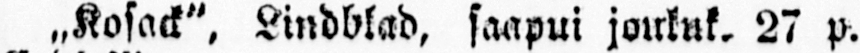„Kosack", Lindblad, saapui joulua 27 p.
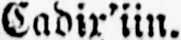Cadix'iin.
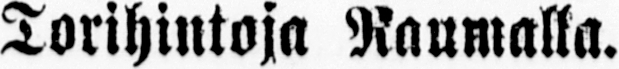Torihintoja Raumalla.
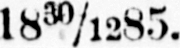l8 30/l285.
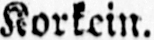Korkein.
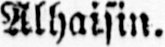Alhaisin.
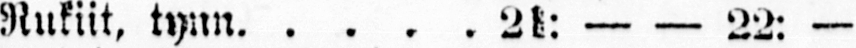Rukiit, tynn 21: — — 22: —
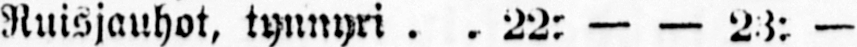Ruisjauhot, tynnyri 23 —
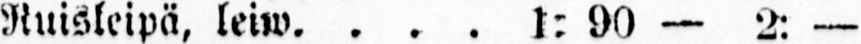Ruisleipä, leiw 1: 90 — 2: —
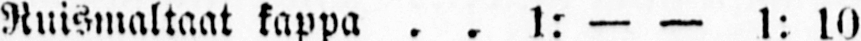Ruismaltaat kappa 1: — — 1: 10
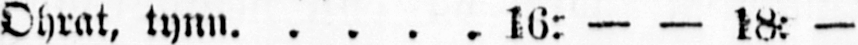Ohrat, tynn 16: — — 18: —
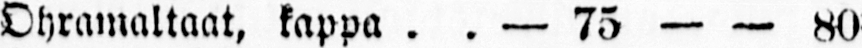Ohramaltaat, kappa — 75 — — 80
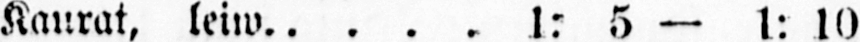Kaurat, leiw 1: 5 — 1: 10
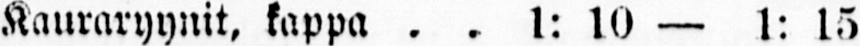Kauraryynit, kappa 1: 10 — 1: 15
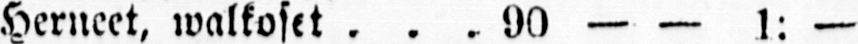Herneet, waltoset 90 — — 1: —
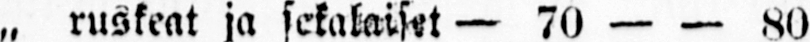„ ruskeat ja, sekataiset — 70 — — 80
